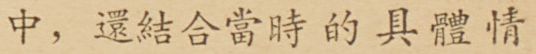中，還結合當時的具體情
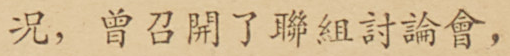況，曾召開了聯組討論會，
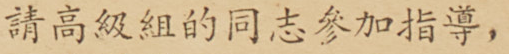請高級組的同志參加指導，
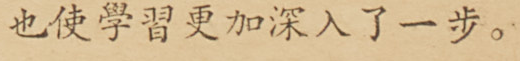也使學習更加深入了一步。
